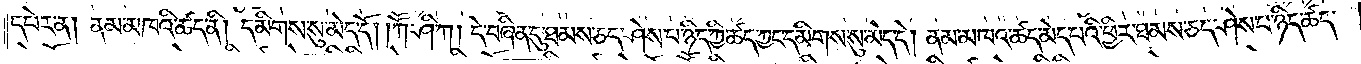དཔེར་ན། ནམ་མཁའི་ཚད་ནི། དམིགས་སུ་མེད་དོ། །ཀཽ་ཤི་ཀ། དེ་བཞིན་དུ་ཐམས་ཅད་ཤེས་པ་ཉིད་ཀྱི་ཚད་ཀྱང་དམིགས་སུ་མེད་དེ། ནམ་མཁའ་ཚད་མེད་པའི་ཕྱིར་ཐམས་ཅད་ཤེས་པ་ཉིད་ཚད་
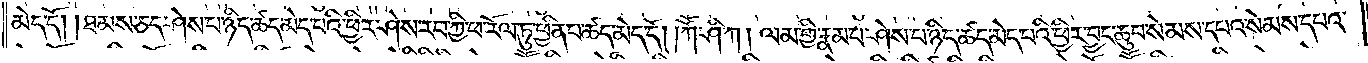མེད་དོ། །ཐམས་ཅད་ཤེས་པ་ཉིད་ཚད་མེད་པའི་ཕྱིར་ཤེས་རབ་ཀྱི་ཕ་རོལ་ཏུ་ཕྱིན་པ་ཚད་མེད་དོ། །ཀཽ་ཤི་ཀ། ལམ་གྱི་རྣམ་པ་ཤེས་པ་ཉིད་ཚད་མེད་པའི་ཕྱིར་བྱང་ཆུབ་སེམས་དཔའ་སེམས་དཔའ་
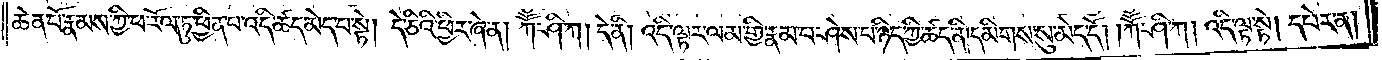ཆེན་པོ་རྣམས་ཀྱི་ཕ་རོལ་ཏུ་ཕྱིན་པ་འདི་ཚད་མེད་པ་སྟེ། དེ་ཅིའི་ཕྱིར་ཞེ་ན། ཀཽ་ཤི་ཀ། དེ་ནི། འདི་ལྟར་ལམ་གྱི་རྣམ་པ་ཤེས་པ་ཉིད་ཀྱི་ཚད་ནི། དམིགས་སུ་མེད་དོ། །ཀཽ་ཤི་ཀ། འདི་ལྟ་སྟེ། དཔེར་ན།
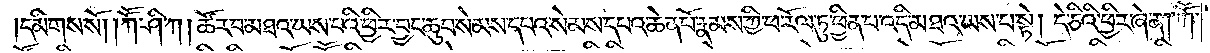དམིགས་སོ། །ཀཽ་ཤི་ཀ། ཚོར་བ་མཐའ་ཡས་པའི་ཕྱིར། བྱང་ཆུབ་སེམས་དཔའ་སེམས་དཔའ་ཆེན་པོ་རྣམས་ཀྱི་ཕ་རོལ་ཏུ་ཕྱིན་པ་འདི་མཐའ་ཡས་པ་སྟེ། དེ་ཅིའི་ཕྱིར་ཞེ་ན། ཀཽ་
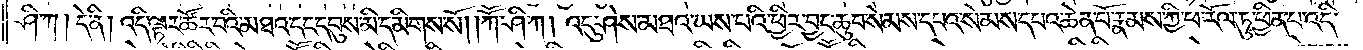ཤི་ཀ། དེ་ནི། འདི་ལྟར་ཚོར་བའི་མཐའ་དང་དབུས་མི་དམིགས་སོ། །ཀཽ་ཤི་ཀ། འདུ་ཤེས་མཐའ་ཡས་པའི་ཕྱིར། བྱང་ཆུབ་སེམས་དཔའ་སེམས་དཔའ་ཆེན་པོ་རྣམས་ཀྱི་ཕ་རོལ་ཏུ་ཕྱིན་པ་འདི་
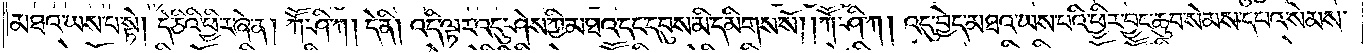མཐའ་ཡས་པ་སྟེ། དེ་ཅིའི་ཕྱིར་ཞེ་ན། ཀཽ་ཤི་ཀ། དེ་ནི། འདི་ལྟར་འདུ་ཤེས་ཀྱི་མཐའ་དང་དབུས་མི་དམིགས་སོ། །ཀཽ་ཤི་ཀ། འདུ་བྱེད་མཐའ་ཡས་པའི་ཕྱིར་བྱང་ཆུབ་སེམས་དཔའ་སེམས་
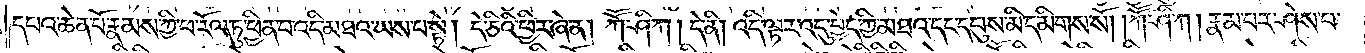དཔའ་ཆེན་པོ་རྣམས་ཀྱི་ཕ་རོལ་ཏུ་ཕྱིན་པ་འདི་མཐའ་ཡས་པ་སྟེ། དེ་ཅིའི་ཕྱིར་ཞེ་ན། ཀཽ་ཤི་ཀ། དེ་ནི། འདི་ལྟར་འདུ་བྱེད་ཀྱི་མཐའ་དང་དབུས་མི་དམིགས་སོ། །ཀཽ་ཤི་ཀ། རྣམ་པར་ཤེས་པ་
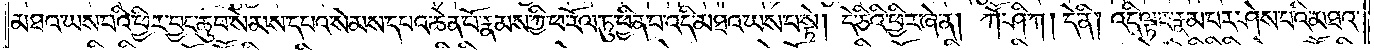མཐའ་ཡས་པའི་ཕྱིར་བྱང་ཆུབ་སེམས་དཔའ་སེམས་དཔའ་ཆེན་པོ་རྣམས་ཀྱི་ཕ་རོལ་ཏུ་ཕྱིན་པ་འདི་མཐའ་ཡས་པ་སྟེ། དེ་ཅིའི་ཕྱིར་ཞེ་ན། ཀཽ་ཤི་ཀ། དེ་ནི། འདི་ལྟར་རྣམ་པར་ཤེས་པའི་མཐའ་
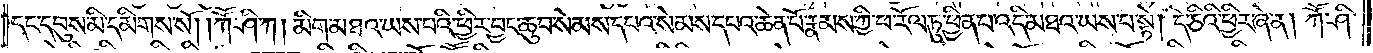དང་དབུས་མི་དམིགས་སོ། །ཀཽ་ཤི་ཀ། མིག་མཐའ་ཡས་པའི་ཕྱིར་བྱང་ཆུབ་སེམས་དཔའ་སེམས་དཔའ་ཆེན་པོ་རྣམས་ཀྱི་ཕ་རོལ་ཏུ་ཕྱིན་པ་འདི་མཐའ་ཡས་པ་སྟེ། དེ་ཅིའི་ཕྱིར་ཞེ་ན། ཀཽ་ཤི་
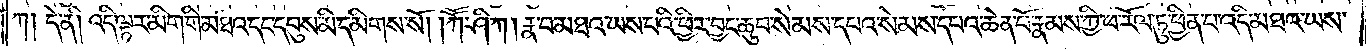ཀ། དེ་ནི། འདི་ལྟར་མིག་གི་མཐའ་དང་དབུས་མི་དམིགས་སོ། །ཀཽ་ཤི་ཀ། རྣ་བ་མཐའ་ཡས་པའི་ཕྱིར་བྱང་ཆུབ་སེམས་དཔའ་སེམས་དཔའ་ཆེན་པོ་རྣམས་ཀྱི་ཕ་རོལ་ཏུ་ཕྱིན་པ་འདི་མཐའ་ཡས་
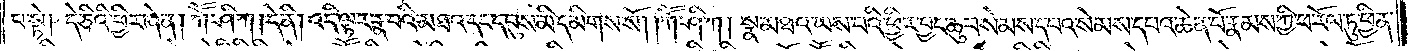པ་སྟེ། དེ་ཅིའི་ཕྱིར་ཞེ་ན། ཀཽ་ཤི་ཀ། དེ་ནི། འདི་ལྟར་རྣ་བའི་མཐའ་དང་དབུས་མི་དམིགས་སོ། །ཀཽ་ཤི་ཀ། སྣ་མཐའ་ཡས་པའི་ཕྱིར་བྱང་ཆུབ་སེམས་དཔའ་སེམས་དཔའ་ཆེན་པོ་རྣམས་ཀྱི་ཕ་རོལ་ཏུ་ཕྱིན་
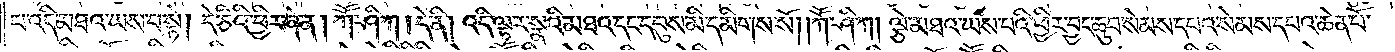པ་འདི་མཐའ་ཡས་པ་སྟེ། དེ་ཅིའི་ཕྱིར་ཞེ་ན། ཀཽ་ཤི་ཀ །དེ་ནི། འདི་ལྟར་སྣའི་མཐའ་དང་དབུས་མི་དམིགས་སོ། །ཀཽ་ཤི་ཀ། ལྕེ་མཐའ་ཡས་པའི་ཕྱིར་བྱང་ཆུབ་སེམས་དཔའ་སེམས་དཔའ་ཆེན་པོ་
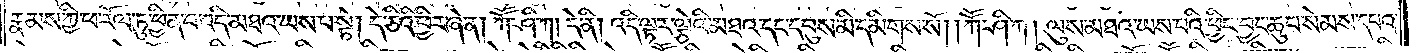རྣམས་ཀྱི་ཕ་རོལ་ཏུ་ཕྱིན་པ་འདི་མཐའ་ཡས་པ་སྟེ། དེ་ཅིའི་ཕྱིར་ཞེ་ན། ཀཽ་ཤི་ཀ། དེ་ནི། འདི་ལྟར་ལྕེའི་མཐའ་དང་དབུས་མི་དམིགས་སོ། །ཀཽ་ཤི་ཀ། ལུས་མཐའ་ཡས་པའི་ཕྱིར་བྱང་ཆུབ་སེམས་དཔའ་
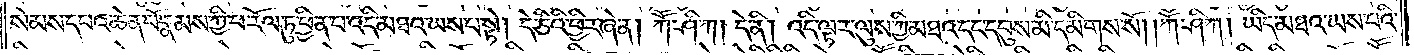སེམས་དཔའ་ཆེན་པོ་རྣམས་ཀྱི་ཕ་རོལ་ཏུ་ཕྱིན་པ་འདི་མཐའ་ཡས་པ་སྟེ། དེ་ཅིའི་ཕྱིར་ཞེ་ན། ཀཽ་ཤི་ཀ། དེ་ནི། འདི་ལྟར་ལུས་ཀྱི་མཐའ་དང་དབུས་མི་དམིགས་སོ། །ཀཽ་ཤི་ཀ། ཡིད་མཐའ་ཡས་པའི་
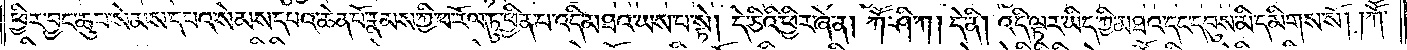ཕྱིར་བྱང་ཆུབ་སེམས་དཔའ་སེམས་དཔའ་ཆེན་པོ་རྣམས་ཀྱི་ཕ་རོལ་ཏུ་ཕྱིན་པ་འདི་མཐའ་ཡས་པ་སྟེ། དེ་ཅིའི་ཕྱིར་ཞེ་ན། ཀཽ་ཤི་ཀ། དེ་ནི། འདི་ལྟར་ཡིད་ཀྱི་མཐའ་དང་དབུས་མི་དམིགས་སོ། །ཀཽ་
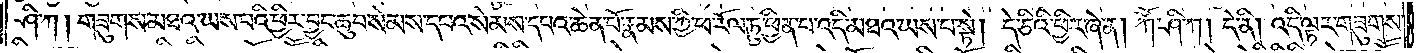ཤི་ཀ། གཟུགས་མཐའ་ཡས་པའི་ཕྱིར་བྱང་ཆུབ་སེམས་དཔའ་སེམས་དཔའ་ཆེན་པོ་རྣམས་ཀྱི་ཕ་རོལ་ཏུ་ཕྱིན་པ་འདི་མཐའ་ཡས་པ་སྟེ། དེ་ཅིའི་ཕྱིར་ཞེ་ན། ཀཽ་ཤི་ཀ། དེ་ནི། འདི་ལྟར་གཟུགས་
